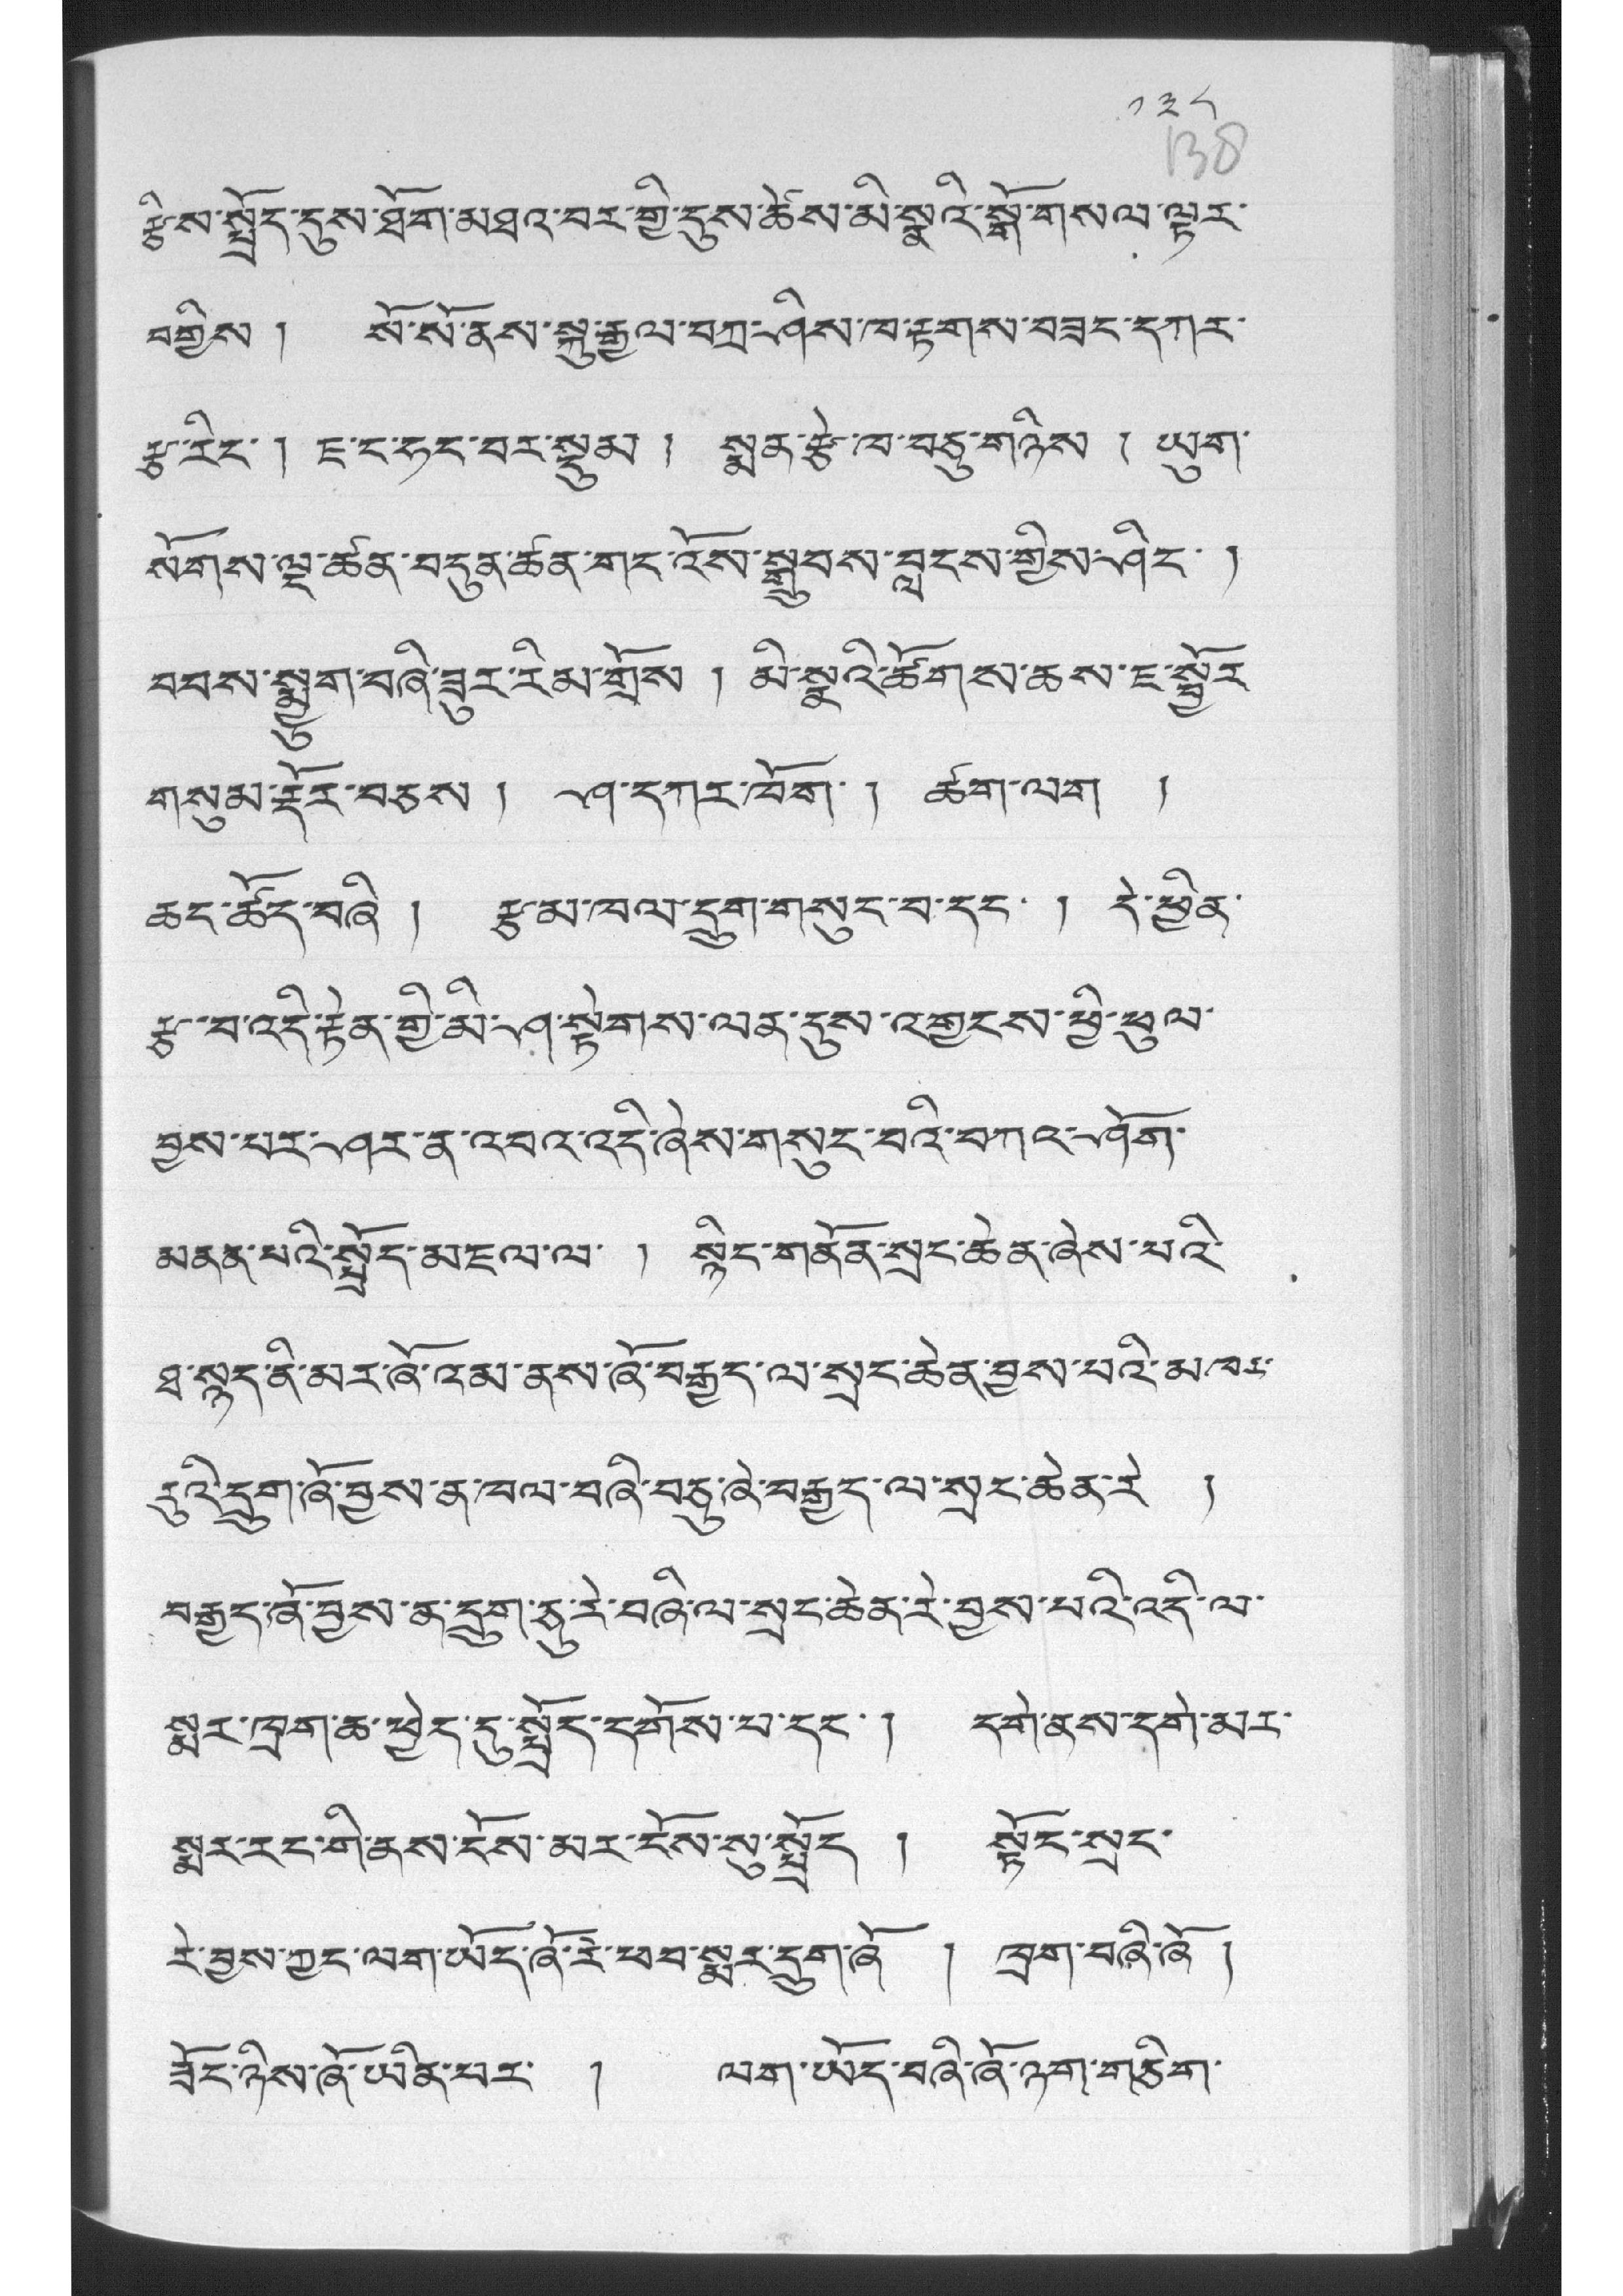༡༣༨
རྩིས་སྤྲོད་དུས་ཐོག་མཐའ་བར་གྱི་དུས་ཚེས་མི་སྣའི་སྒོ་གསལ་ལྟར་
བགྱིས ། སོ་སོ་ནས་སྐུ་རྒྱལ་བཀྲ་ཤིས་ཁ་རྟགས་བཟང་དཀར་
རྩ་རིང་ ། ཇ་ང་ཧང་བར་སྡུམ ། སྨན་རྩེ་ཁ་བཅུ་གཉིས ། ཡུག་
སོགས་ལྔ་ཚན་བདུན་ཚན་གང་འོས་སྒྲུབས་བླངས་གྱིས་ཤིང་ །
བབས་སྨྱུག་བཞི་ཟུར་རིམ་གྲོས ། མི་སྣའི་ཚོགས་ཆས་ཇ་སྦྱོར་
གསུམ་རྡོར་བཅས ། ཤ་དཀར་ཁོག་ ། ཚག་ལག །
ཆང་ཚོད་བཞི ། རྩ་མ་ཁལ་དྲུག་གསུང་བ་དང་ ། དེ་ཕྱིན་
རྩ་་བ་འདི་རྟེན་གྱི་མི་ཤ་སྟེགས་ལན་དུས་འགྱངས་ཕྱི་ཕུལ་
བྱས་པར་ཤར་ན་འབའ་འདི་ཞེས་གསུང་བའི་བཀའ་ཤོག་
མནན་པའི་སྤྲོད་མཇལ་ལ་ ། སྙིང་གནོན་སྲང་ཆེན་ཞེས་པའི་
ཐ་སྙད་ནི་མར་ཞོ་འམ་ནས་ཞོ་བརྒྱད་ལ་སྲང་ཆེན་བྱས་པའི་མཁར་
རུའི་དྲུག་ཞོ་བྱས་ན་ཁལ་བཞི་བཅུ་ཞེ་བརྒྱད་ལ་སྲང་ཆེན་རེ །
བརྒྱད་ཞོ་བྱས་ན་དྲུག་ཅུ་རེ་བཞི་ལ་སྲང་ཆེན་རེ་བྱས་པའི་འདི་ལ་
སྨར་ཁྲག་ཆ་ཕྱེད་དུ་སྤྲོད་དགོས་པ་དང་། དགེ་ནས་དགེ་མར་
སྨར་རང་གི་ནས་ངོས་མར་ངོས་སུ་སྤྲོད ། སྟོང་སྲང་
རེ་བྱས་ཀྱང་ལག་ཡོད་ཞོ་རེ་ཕབ་སྨར་དྲུག་ཞོ ། ཁྲག་བཞི་ཞོ །
ཟོང་ཉིས་ཞོ་ཡིན་པར་ ། ལག་ཡོད་བཞི་ཞོ་ཉག་གཅིག་
